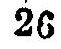26
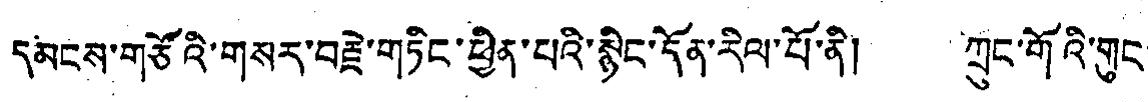དམངས་གཙོའི་གསར་བརྗེ་གཏིང་ཕྱིན་པའི་སྙིང་དོན་རིལ་པོ་ནི། ཀྲུང་གོའི་གུང་
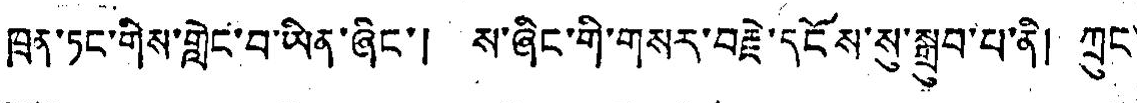ཁྲན་ཏང་གིས་གླེང་བ་ཡིན་ཞིང་། ས་ཞིང་གི་གསར་བརྗེ་དངོས་སུ་སྒྲུབ་པ་ནི། ཀྲུང་
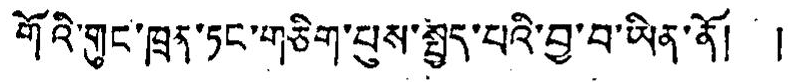གོའི་གུང་ཁྲན་ཏང་གཅིག་པས་སྤྱོད་པའི་བྱ་བ་ཡིན་ནོ། །
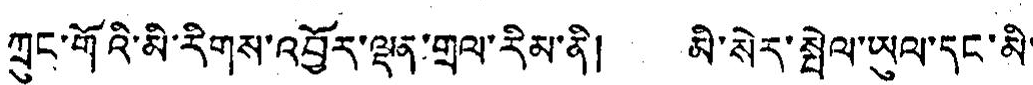ཀྲུང་གོའི་མི་རིགས་འབྱོར་ལྡན་གྲལ་རིམ་ནི། མི་སེར་སྤེལ་ཡུལ་དང་མི་
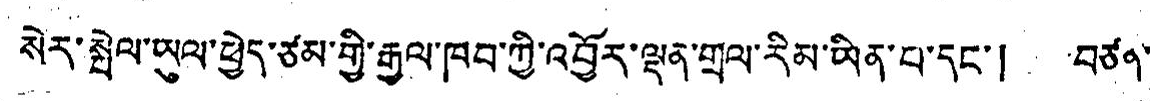སེར་སྤེལ་ཡུལ་ཕྱེད་ཙམ་གྱི་རྒྱལ་ཁབ་ཀྱི་འབྱོར་ལྡན་གྲལ་རིམ་ཡིན་པ་དང་། བཙན་
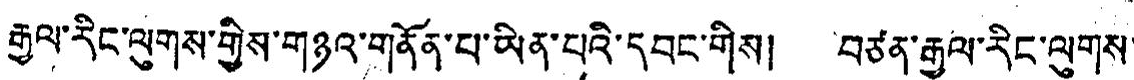རྒྱལ་རིང་ལུགས་གྱིས་གཉའ་གནོན་པ་ཡིན་པའི་དབང་གིས། བཙན་རྒྱལ་རིང་ལུགས་
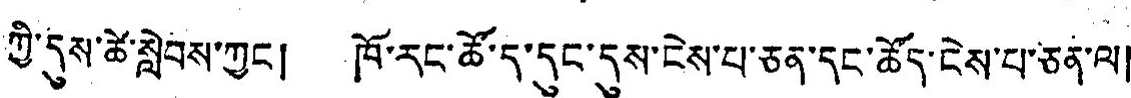ཀྱི་དུས་ཚེ་སླེབས་ཀྱང། ཁོ་རང་ཚོ་ད་དུང་དུས་ངེས་པ་ཅན་དང་ཚོད་ངེས་པ་ཅན་ལ།
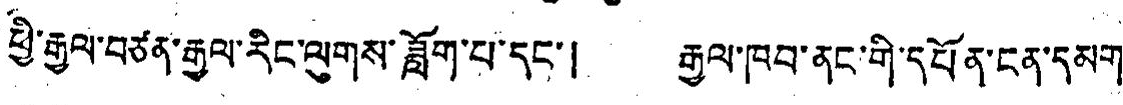ཕྱི་རྒྱལ་བཙན་རྒྱལ་རིང་ལུགས་ཟློག་པ་དང་། རྒྱལ་ཁབ་ནང་གི་དཔོན་ངན་དམག་
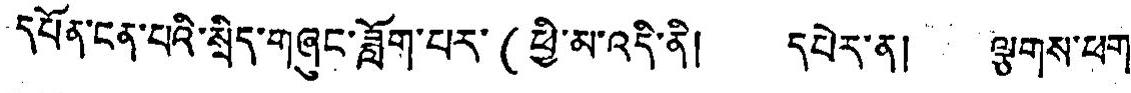དཔོན་ངན་པའི་སྲིད་གཞུང་ཟློག་པར་(ཕྱི་མ་འདི་ནི། དཔེར་ན། ལྕགས་ཕག་
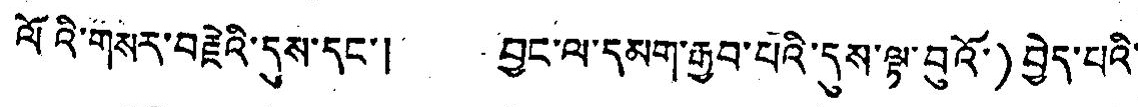ལོའི་གསར་བརྗེའི་དུས་དང་། བྱང་ལ་དམག་རྒྱབ་པའི་དུས་ལྟ་བུའོ་)བྱེད་པའི་
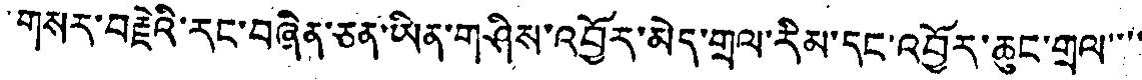གསར་བརྗེའི་རང་བཞིན་ཅན་ཡིན་གཤིས་འབྱོར་མེད་གྲལ་རིམ་དང་འབྱོར་ཆུང་གྲལ་་་་
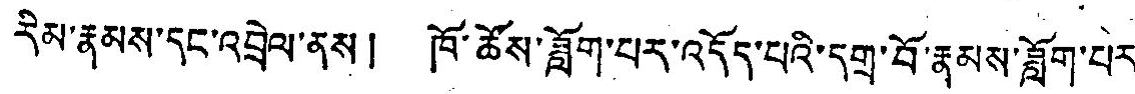རིམ་རྣམས་དང་འབྲེལ་ནས། ཁོ་ཚོས་ཟློག་པར་འདོད་པའི་དགྲ་བོ་རྣམས་ཟློག་པར་
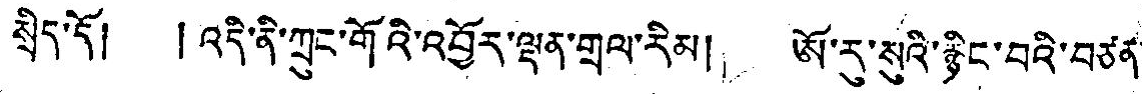སྲིད་དོ། ། འདི་ནི་ཀྲུང་གོའི་འབྱོར་ལྡན་གྲལ་རིམ། ཨོ་རུ་སུའི་རྙིང་བའི་བཙན་
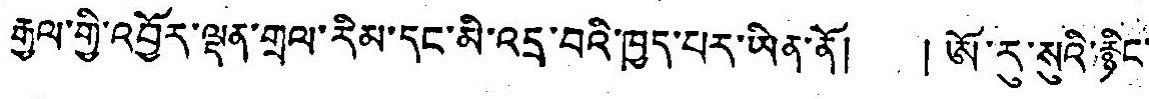རྒྱལ་གྱི་འབྱོར་ལྡན་གྲལ་རིམ་དང་མི་འདྲ་བའི་ཁྱད་པར་ཡིན་ནོ། ། ཨོ་རུ་སུའི་རྙིང་
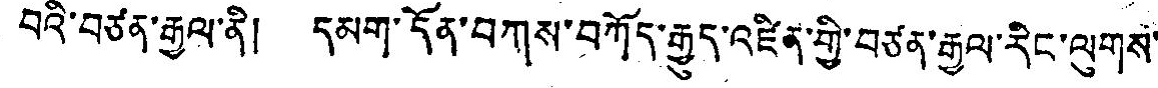བའི་བཙན་རྒྱལ་ནི། དམག་དོན་བཀས་བཀོད་རྒྱུད་འཛིན་གྱི་བཙན་རྒྱལ་རིང་ལུགས་
